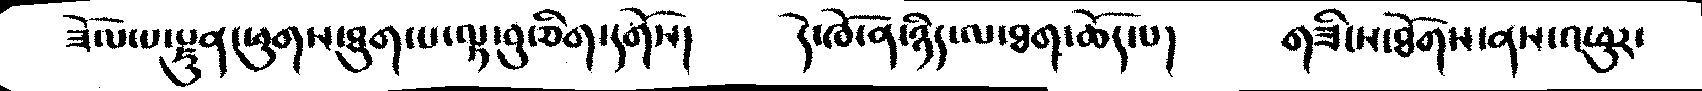ཟོལ་པ་རྫུན་ཕུགས་ཐུག་པ་ལྟ་བུ་ཅིག་དགོས།   དེ་ཁོ་ན་ཉིད་ལ་ཐག་ཆོད་པ།  གཟིངས་ཐོགས་ནས་འཕུར་
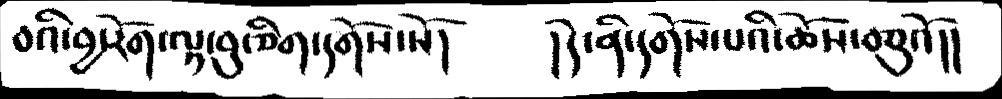བའི་བྱ་རོག་ལྟ་བུ་ཅིག་དགོས་སོ།  ། དེ་ནི་དགོས་པའི་ཆོས་བཅུའོ།།
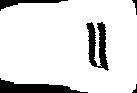།།
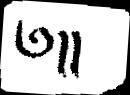༄།།
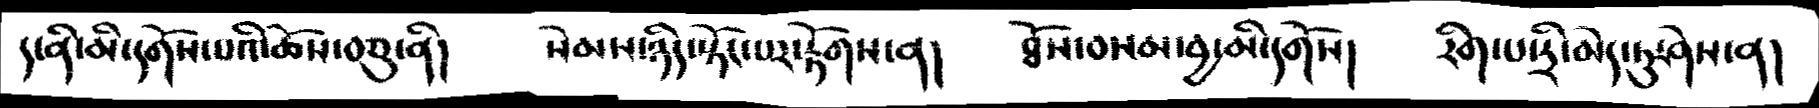ད་ནི་མི་དགོས་པའི་ཆོས་བཅུ་ནི།       སེམས་ཉིད་སྟོང་པར་རྟོགས་ན།      ཐོས་བསམ་བྱ་མི་དགོས།      རིག་པ་ཏྲི་མེད་ཏུ་ཤེས་ན།
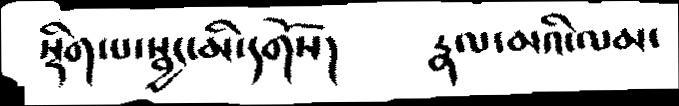སྡིག་པ་སྦྱང་མི་དགོས།   རྣལ་མའི་ལམ་
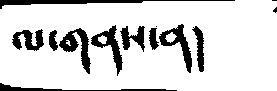ལ་གནས་ན།
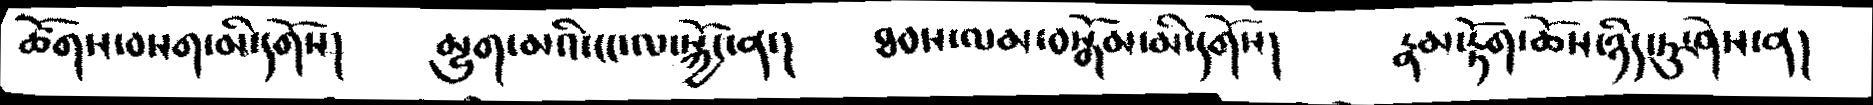ཚོགས་བསག་མི་དགོས།   མྱུག་མའི་ངང་ལ་སྐྱོང་ན་།   ཐབས་ལམ་བསྒོམ་མི་དགོས།  རྣམ་རྟོག་ཆོས་ཉིད་ཏུ་ཤེས་ན།
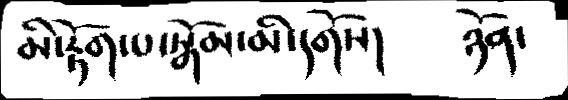མི་རྟོག་པ་སྒོམ་མི་དགོས།  ཉོན་
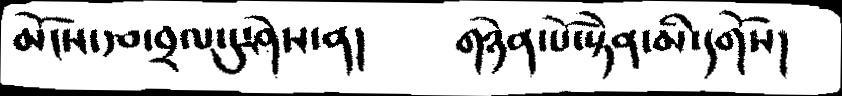མོངས་དབ་བྲལ་དུ་ཤེས་ན།  གཉེན་པོ་སྟེན་མི་དགོས།
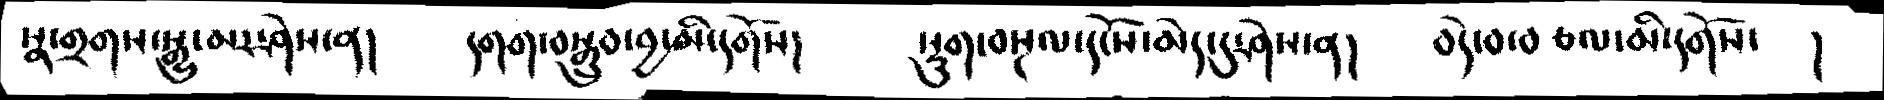སྣ་གྲགས་སྒྱུ་མར་ཤེས་ན།  དགག་བསྒྲུབ་བྱ་མི་དགོས།  སྡུག་བསྔལ་དངོས་མེད་དུ་ཤེས་ན།  བདེ་བ་བཅལ་མི་དགོས་    །
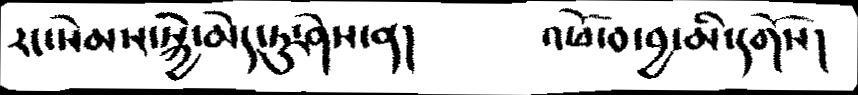རང་སེམས་སྐྱེ་མེད་ཏུ་ཤེས་ན།  འཕོ་བ་བྱ་མི་དགོས།
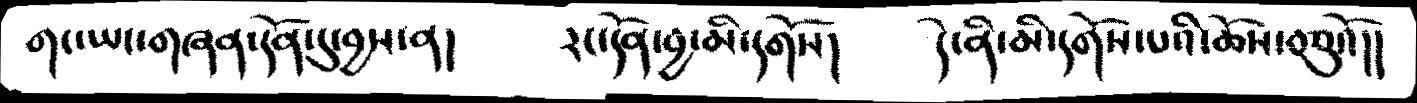གང་ཡང་གཞན་དོན་དུ་བྱས་ན།  རང་དོན་བྱ་མི་དགོས།  དེ་ནི་མི་དགོས་པའི་ཆོས་བཅུའོ།།
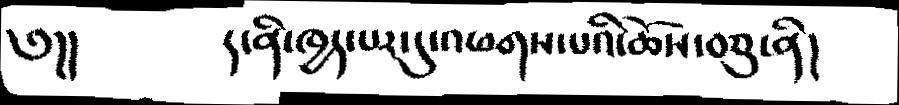༄།།   ད་ནི་ཁྱད་པར་དུ་འཕགས་པའི་ཆོས་བཅུ་ནི།
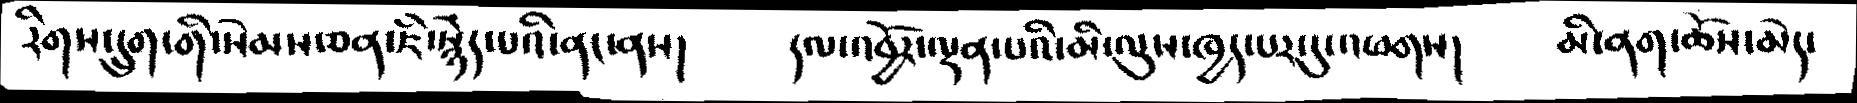རིགས་དྲུག་གི་སེམས་ཅན་ཇི་སྙེད་པའི་ནང་ནས།  དལ་འབྱོར་ལྡན་པའི་མི་ལུས་ཁྱད་པར་དུ་འཕགས།  མི་ནག་ཆོས་མེད་
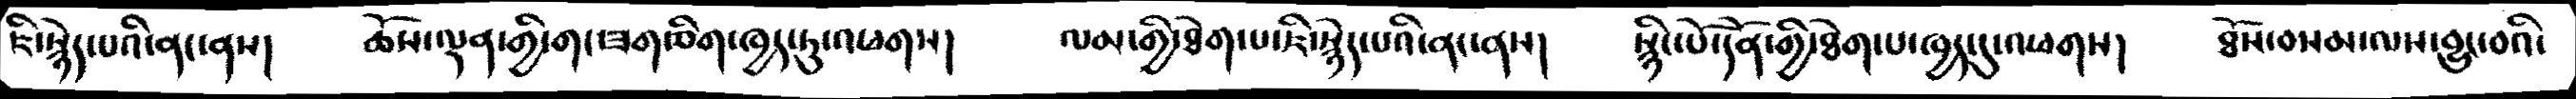ཇི་སྙེད་པའི་ནང་ནས།  ཆོས་ལྡན་གྱི་གང་ཟག་ཅིག་ཁྱད་ཏུ་འཕགས།  ལམ་གྱི་ཐེག་པ་ཇི་སྙེད་པའི་ནང་ནས་།  སྙིང་པོ་དོན་གྱི་ཐེག་པ་ཁྱད་དུ་འཕགས།  ཐོས་བསམ་ལས་་བྱུང་བའི་
